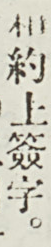合約上簽字。
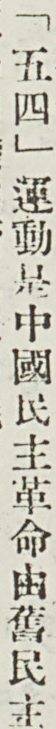「五四」運動是中國民主革命由舊民主
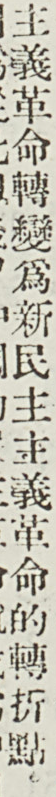主義革命轉變爲新民主主義革命的轉折點。
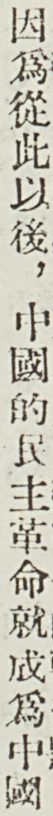因爲從此以後，中國的民主革命就成爲中國
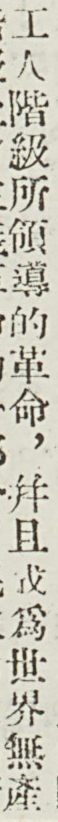工人階級所領導的革命，並且成爲世界無產
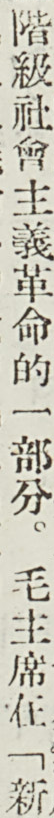階級社會主義革命的一部分。毛主席在「新
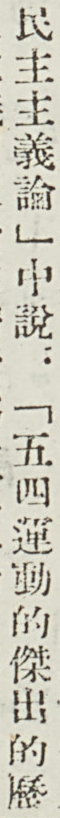民主主義論」中說：「五四運動的傑出的歷
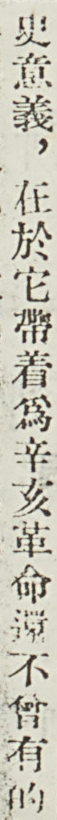史意義，在於它帶着爲辛亥革命還不曾有的
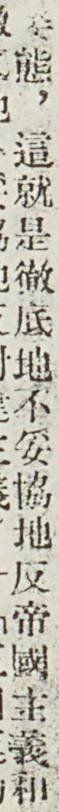姿態，這就是徹底地不妥協地反帝國主義和
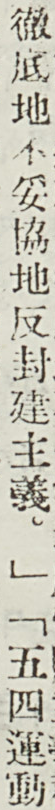徹底地不妥協地反封建主義。」「五四運動
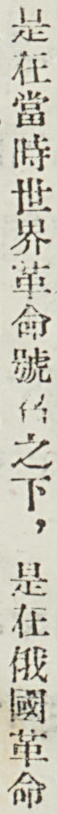是在當時世界革命號召之下，是在俄國革命
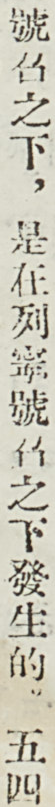號召之下，是在列寧號召之下發生的。五四
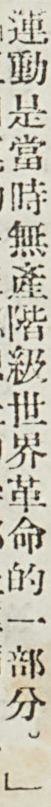運動是當時無產階級世界革命的一部分。」
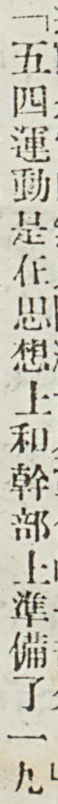「五四運動是在思想上和趕不上準備了一九
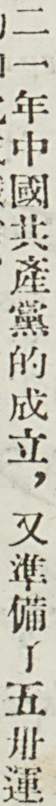二一年中國共產黨的成立，有準備了五卅運
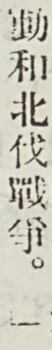動和北伐戰爭。
